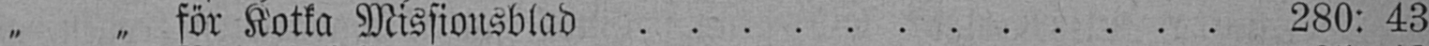" " för Kotka Missionsblad 280: 43
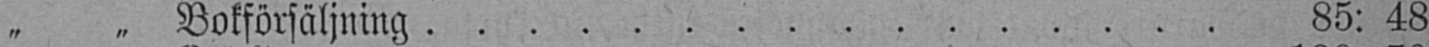" " Bokförsäljning 85:48
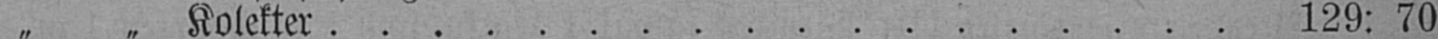" " Kolekter 129: 70
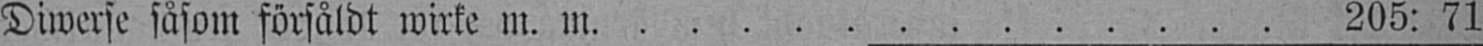Diwerse såsom försåldt wirke m. m. 205: 71
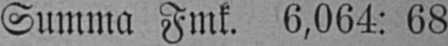Summa Fmk. 6,064: 68
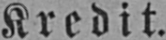Kredit.
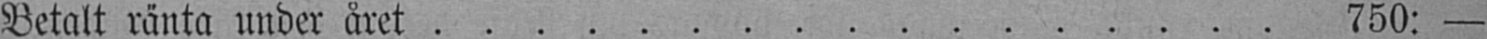Betalt ränta under året 750: —
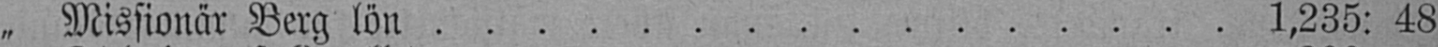" Missionär Berg lön 1,235: 48
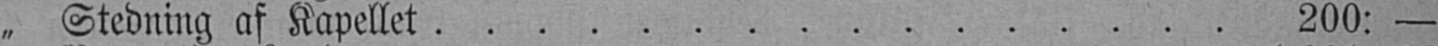„ Stedning af Kapellet 200: —
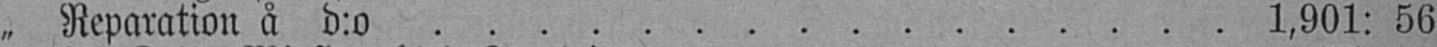" Reparation å d:o 1,901: 56
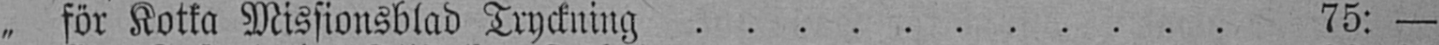„ för Kotka Missionsblad Tryckning 75: —
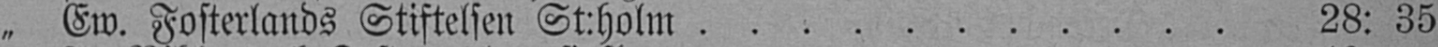„ Ew. Fosterlands Stiftelsen St:holm 28: 35
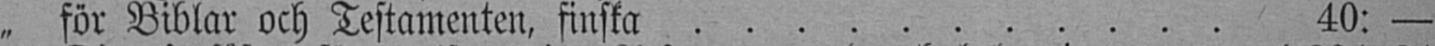„ för Biblar och Testamenten, finska 40: —
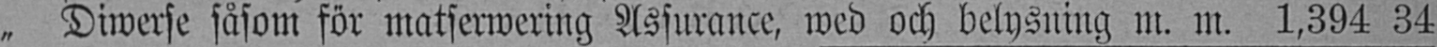" Diwerse såsom för matserwering Assurance, wed och belysning m. m. 1,394 34
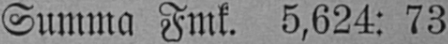Summa Fmk. 5,624: 73
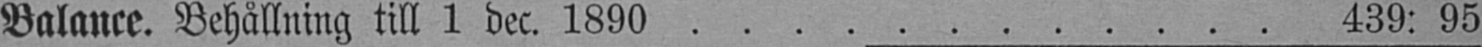Balance. Behållning till 1 dec. 1890 . . 439: 95
